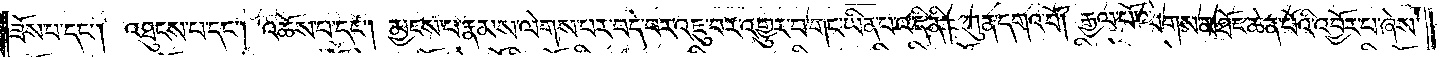ཟོས་པ་དང༌། འཐུངས་པ་དང༌། འཆོས་པ་དང༌། མྱངས་པ་རྣམས་ལེགས་པར་བདེ་བར་འཇུ་བར་འགྱུར་བ་གང་ཡིན་པ་འདི་ནི། ཀུན་དགའ་བོ། རྒྱལ་པོ་ལེགས་མཐོང་ཆེན་པོའི་འབྱོར་པ་ཞེས་
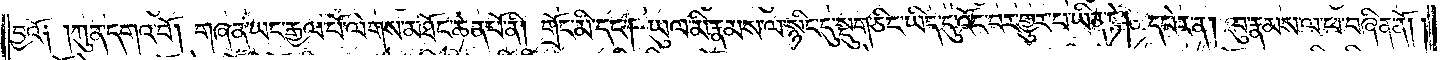བྱའོ༑ །ཀུན་དགའ་བོ། གཞན་ཡང་རྒྱལ་པོ་ལེགས་མཐོང་ཆེན་པོ་ནི། གྲོང་མི་དང༌། ཡུལ་མི་རྣམས་ལ་སྙིང་དུ་སྡུག་ཅིང་ཡིད་དུ་འོང་བར་གྱུར་པ་ཡིན་ཏེ། དཔེར་ན། བུ་རྣམས་ལ་ཕ་བཞིན་ནོ། །
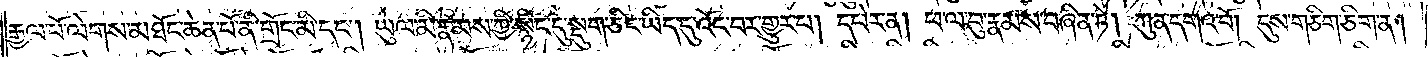རྒྱལ་པོ་ལེགས་མཐོང་ཆེན་པོ་ནི་གྲོང་མི་དང༌། ཡུལ་མི་རྣམས་ཀྱི་སྙིང་དུ་སྡུག་ཅིང་ཡིད་དུ་འོང་བར་གྱུར་པ། དཔེར་ན། ཕ་ལ་བུ་རྣམས་བཞིན་ཏེ། ཀུན་དགའ་བོ། དུས་གཅིག་ཅིག་ན།
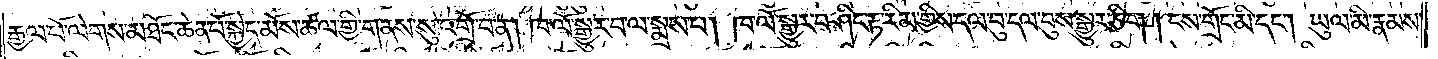རྒྱལ་པོ་ལེགས་མཐོང་ཆེན་པོ་སྐྱེད་མོས་ཚལ་གྱི་གནས་སུ་འགྲོ་བ་ན། ཁ་ལོ་སྒྱུར་བ་ལ་སྨྲས་པ། ཁ་ལོ་སྒྱུར་བ་ཤིང་རྟ་རིམ་གྱིས་དལ་བུ་དལ་བུས་སྒྱུར་ཅིག །ངས་གྲོང་མི་དང༌། ཡུལ་མི་རྣམས་
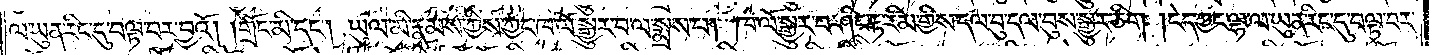ལ་ཡུན་རིང་དུ་བལྟ་བར་བྱའོ། །གྲོང་མི་དང༌། ཡུལ་མི་རྣམས་ཀྱིས་ཀྱང་ཁ་ལོ་སྒྱུར་བ་ལ་སྨྲས་པ། ཁ་ལོ་སྒྱུར་བ་ཤིང་རྟ་རིམ་གྱིས་དལ་བུ་དལ་བུས་སྒྱུར་ཅིག །ངེད་ཀྱང་ལྷ་ལ་ཡུན་རིང་དུ་བལྟ་བར་
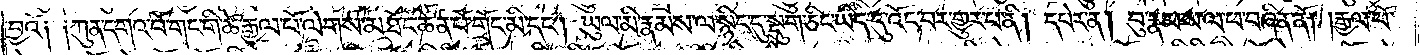བྱའོ༑ ༑ཀུན་དགའ་བོ་གང་གི་ཚེ་རྒྱལ་པོ་ལེགས་མཐོང་ཆེན་པོ་གྲོང་མི་དང༌། ཡུལ་མི་རྣམས་ལ་སྙིང་དུ་སྡུག་ཅིང་ཡིད་དུ་འོང་བར་གྱུར་པ་ནི། དཔེར་ན། བུ་རྣམས་ལ་ཕ་བཞིན་ནོ། །རྒྱལ་པོ་
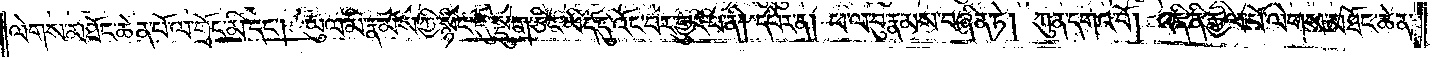ལེགས་མཐོང་ཆེན་པོ་ལ་གྲོང་མི་དང༌། ཡུལ་མི་རྣམས་ཀྱི་སྙིང་དུ་སྡུག་ཅིང་ཡིད་དུ་འོང་བར་གྱུར་པ་ནི། དཔེར་ན། ཕ་ལ་བུ་རྣམས་བཞིན་ཏེ། ཀུན་དགའ་བོ། འདི་ནི་རྒྱལ་པོ་ལེགས་མཐོང་ཆེན་
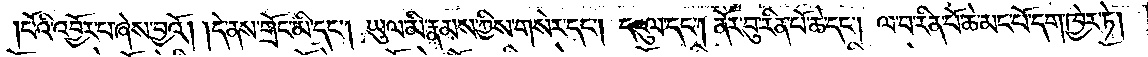པོའི་འབྱོར་པ་ཞེས་བྱའོ། །དེ་ནས་གྲོང་མི་དང༌། ཡུལ་མི་རྣམས་ཀྱིས་གསེར་དང༌། དངུལ་དང༌། ནོར་བུ་རིན་པོ་ཆེ་དང༌། ལ་བ་རིན་པོ་ཆེ་མང་པོ་དག་ཁྱེར་ཏེ།
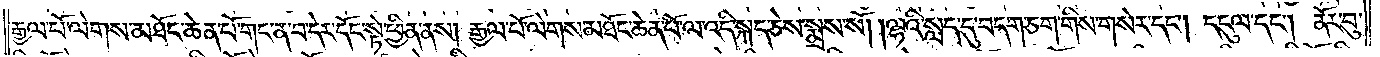རྒྱལ་པོ་ལེགས་མཐོང་ཆེན་པོ་གང་ན་བ་དེར་དོང་སྟེ་ཕྱིན་ནས། རྒྱལ་པོ་ལེགས་མཐོང་ཆེན་པོ་ལ་འདི་སྐད་ཅེས་སྨྲས་སོ། །ལྷའི་སླད་དུ་བདག་ཅག་གིས་གསེར་དང༌། དངུལ་དང༌། ནོར་བུ་
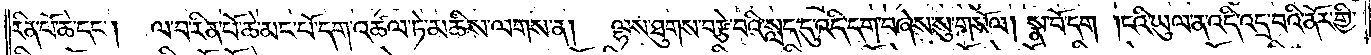རིན་པོ་ཆེ་དང༌། ལ་བ་རིན་པོ་ཆེ་མང་པོ་དག་འཚལ་ཏེ་མཆིས་ལགས་ན། ལྷས་ཐུགས་བརྩེ་བའི་སླད་དུ་འདི་དག་བཞེས་སུ་གསོལ། སྣ་བོ་དག །ངའི་ཡུལ་ན་འདི་འདྲ་བའི་ནོར་གྱི་
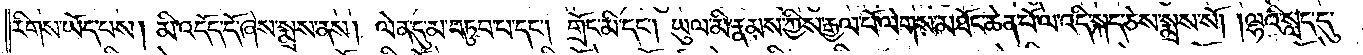རིགས་ཡོད་པས། མི་འདོད་དོ་ཞེས་སྨྲས་ནས། ལེན་དུ་མ་བཏུབ་པ་དང༌། གྲོང་མི་དང༌། ཡུལ་མི་རྣམས་ཀྱིས་རྒྱལ་པོ་ལེགས་མཐོང་ཆེན་པོ་ལ་འདི་སྐད་ཅེས་སྨྲས་སོ། །ལྷའི་སླད་དུ་
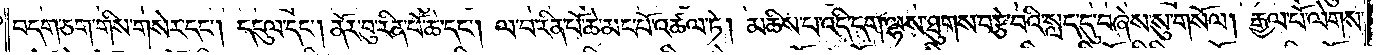བདག་ཅག་གིས་གསེར་དང༌། དངུལ་དང༌། ནོར་བུ་རིན་པོ་ཆེ་དང༌། ལ་བ་རིན་པོ་ཆེ་མང་པོ་འཚལ་ཏེ། མཆིས་པ་འདི་དག་ལྷས་ཐུགས་བརྩེ་བའི་སླད་དུ་བཞེས་སུ་གསོལ། རྒྱལ་པོ་ལེགས་
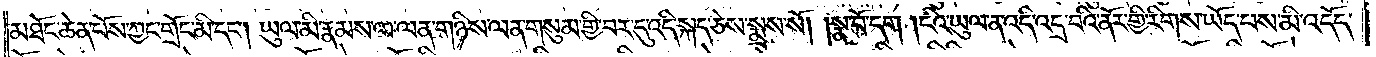མཐོང་ཆེན་པོས་ཀྱང་གྲོང་མི་དང༌། ཡུལ་མི་རྣམས་ལ་ལན་གཉིས་ལན་གསུམ་གྱི་བར་དུ་འདི་སྐད་ཅེས་སྨྲས་སོ། །སྣ་བོ་དག །ངའི་ཡུལ་ན་འདི་འདྲ་བའི་ནོར་གྱི་རིགས་ཡོད་པས་མི་འདོད་
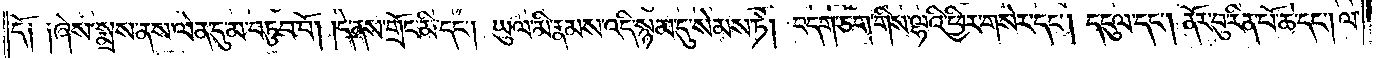དོ༑ ༑ཞེས་སྨྲས་ནས་ལེན་དུ་མ་བཏུབ་བོ། །དེ་ནས་གྲོང་མི་དང༌། ཡུལ་མི་རྣམས་འདི་སྙམ་དུ་སེམས་ཏེ། བདག་ཅག་གིས་ལྷའི་ཕྱིར་གསེར་དང༌། དངུལ་དང༌། ནོར་བུ་རིན་པོ་ཆེ་དང༌། ལ་
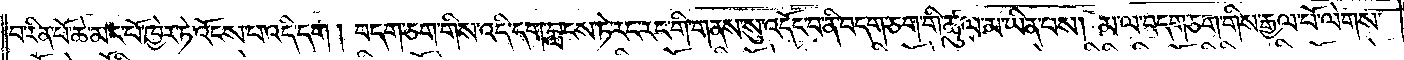བ་རིན་པོ་ཆེ་མང་པོ་ཁྱེར་ཏེ་འོངས་པ་འདི་དག །བདག་ཅག་གིས་འདི་དག་བླངས་ཏེ་རང་རང་གི་གནས་སུ་འདོང་བ་ནི་བདག་ཅག་གི་ཚུལ་མ་ཡིན་པས། མ་ལ་བདག་ཅག་གིས་རྒྱལ་པོ་ལེགས་
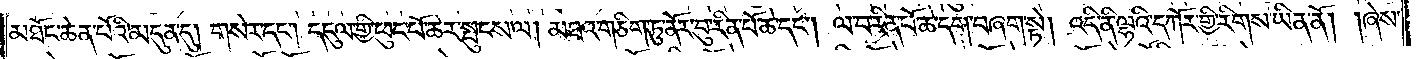མཐོང་ཆེན་པོའི་མདུན་དུ། གསེར་དང༌། དངུལ་གྱི་ཕུང་པོ་ཆེར་སྤུངས་ལ། མཐའ་གཅིག་ཏུ་ནོར་བུ་རིན་པོ་ཆེ་དང༌། ལ་བ་རིན་པོ་ཆེ་དག་བཞག་སྟེ། འདི་ནི་ལྷའི་དཀོར་གྱི་རིགས་ཡིན་ནོ། །ཞེས་
